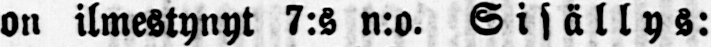on ilmestynyt 7:s n:o. Sisällys:
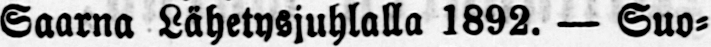Saarna Lähetysjuhlalla 1892. — Suo-
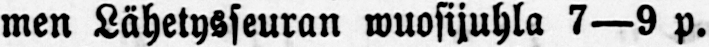men Lähetysseuran wuosijuhla 7—9 p.
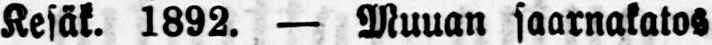Kesät. 1892. — Muuan saarnakatos
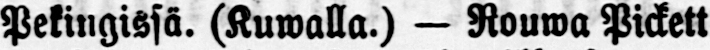Pekingissä. (Kuwalla.) — Rauwa Pickett
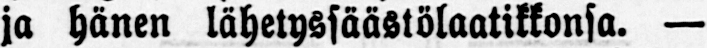ja hänen lähetyssäästölaatikkonsa. —
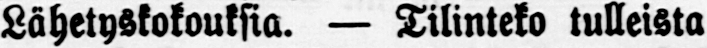Lähetyskokouksia. — Tilinteko tulleista
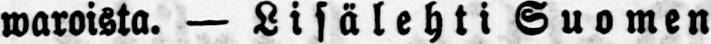waroista. — Lisälehti Suomen
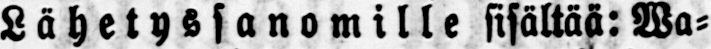Lähetyssanomille sisältää: Wa-
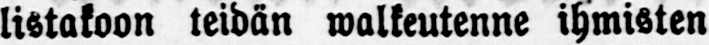listakoon teidän walkeutenne ihmisten
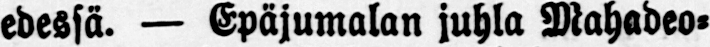edessä. — Epäjumalan juhla Mahadeo-
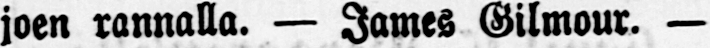joen rannalla. — James Gilmour. —
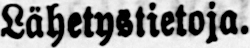Lähetystietoja.
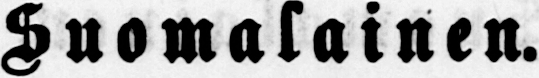Suomalainen.
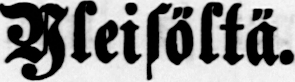Yleisöltä.
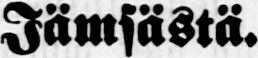Jämsästä.
